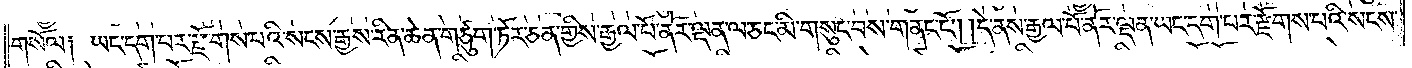གསོལ༑ ཡང་དག་པར་རྫོགས་པའི་སངས་རྒྱས་རིན་ཆེན་གཙུག་ཏོར་ཅན་གྱིས་རྒྱལ་པོ་ནོར་ལྡན་ལ་ཅང་མི་གསུང་བས་གནང་ངོ༌། །དེ་ནས་རྒྱལ་པོ་ནོར་ལྡན་ཡང་དག་པར་རྫོགས་པའི་སངས་
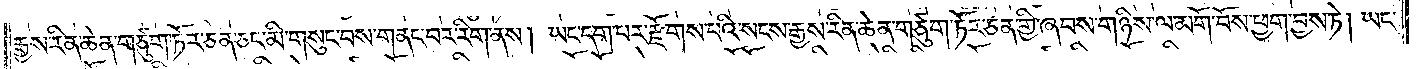རྒྱས་རིན་ཆེན་གཙུག་ཏོར་ཅན་ཅང་མི་གསུང་བས་གནང་བར་རིག་ནས། ཡང་དག་པར་རྫོགས་པའི་སངས་རྒྱས་རིན་ཆེན་གཙུག་ཏོར་ཅན་གྱི་ཞབས་གཉིས་ལ་མགོ་བོས་ཕྱག་བྱས་ཏེ། ཡང་
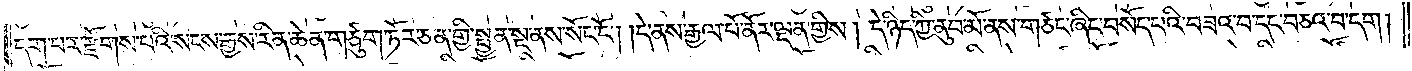དག་པར་རྫོགས་པའི་སངས་རྒྱས་རིན་ཆེན་གཙུག་ཏོར་ཅན་གྱི་སྤྱན་སྔ་ནས་སོང་ངོ༌། །དེ་ནས་རྒྱལ་པོ་ནོར་ལྡན་གྱིས། དེ་ཉིད་ཀྱི་ནུབ་མོ་ནས་གཙང་ཞིང་བསོད་པའི་བཟའ་བ་དང་བཅའ་བ་དག།
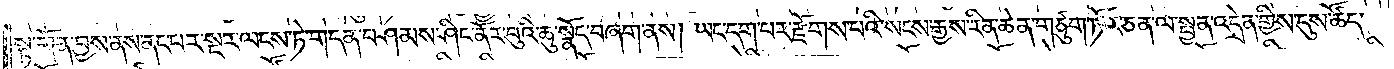སྟ་གོན་བྱས་ནས་ནང་པར་སྔར་ལངས་ཏེ་གདན་བཤམས་ཤིང་ནོར་བུའི་ཆུ་སྣོད་བཞག་ནས། ཡང་དག་པར་རྫོགས་པའི་སངས་རྒྱས་རིན་ཆེན་གཙུག་ཏོར་ཅན་ལ་སྤྱན་འདྲེན་གྱིས་དུས་ཚོད་
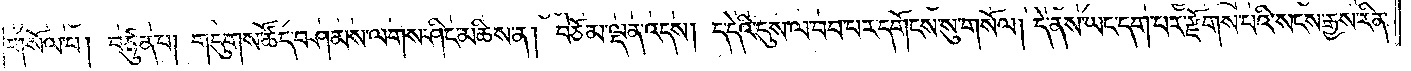གསོལ་པ། བཙུན་པ། གདུགས་ཚོད་བཤམས་ལགས་ཤིང་མཆིས་ན། བཅོམ་ལྡན་འདས། ད་དེའི་དུས་ལ་བབ་པར་དགོངས་སུ་གསོལ། དེ་ནས་ཡང་དག་པར་རྫོགས་པའི་སངས་རྒྱས་རིན་
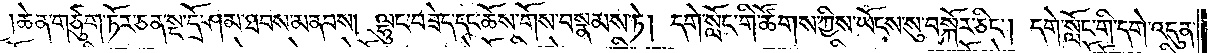།ཆེན་གཙུག་ཏོར་ཅན་སྔ་དྲོ་ཤམ་ཐབས་མནབས། ལྷུང་བཟེད་དང་ཆོས་གོས་བསྣམས་ཏེ། དགེ་སློང་གི་ཚོགས་ཀྱིས་ཡོངས་སུ་བསྐོར་ཅིང༌། དགེ་སློང་གི་དགེ་འདུན་
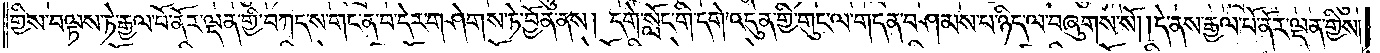གྱིས་བལྟས་ཏེ་རྒྱལ་པོ་ནོར་ལྡན་གྱི་བཀད་ས་གང་ན་བ་དེར་གཤེགས་ཏེ་བྱོན་ནས། དགེ་སློང་གི་དགེ་འདུན་གྱི་གུང་ལ་གདན་བཤམས་པ་ཉིད་ལ་བཞུགས་སོ། །དེ་ནས་རྒྱལ་པོ་ནོར་ལྡན་གྱིས་
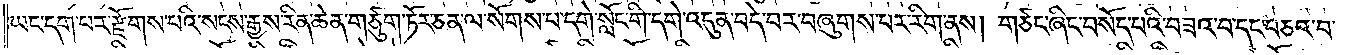ཡང་དག་པར་རྫོགས་པའི་སངས་རྒྱས་རིན་ཆེན་གཙུག་ཏོར་ཅན་ལ་སོགས་པ་དགེ་སློང་གི་དགེ་འདུན་བདེ་བར་བཞུགས་པར་རིག་ནས། གཙང་ཞིང་བསོད་པའི་བཟའ་བ་དང་བཅའ་བ་
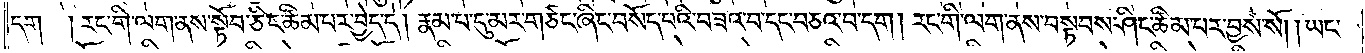དག །རང་གི་ལག་ནས་སྟོབ་ཅིང་ཚིམ་པར་བྱེད་དེ། རྣམ་པ་དུ་མར་གཙང་ཞིང་བསོད་པའི་བཟའ་བ་དང་བཅའ་བ་དག །རང་གི་ལག་ནས་བསྟབས་ཤིང་ཚིམ་པར་བྱས་སོ། །ཡང་
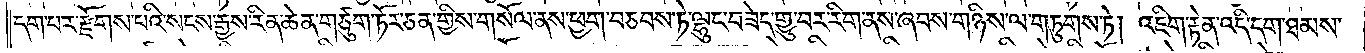དག་པར་རྫོགས་པའི་སངས་རྒྱས་རིན་པོ་ཆེན་གཙུག་ཏོར་ཅན་གྱིས་གསོལ་ནས་ཕྱག་བཅབས་ཏེ་ལྷུང་བཟེད་གྱུར་བར་རིག་ནས་ཞབས་གཉིས་ལ་གཏུགས་ཏེ། འཇིག་རྟེན་འདི་དག་ཐམས་
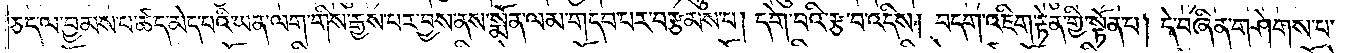ཅད་ལ་བྱམས་པ་ཚད་མེད་པའི་ཡན་ལག་གིས་རྒྱས་པར་བྱས་ནས་སྨོན་ལམ་གདབ་པར་བརྩམས་པ། དགེ་བའི་རྩ་བ་འདིས། བདག་འཇིག་རྟེན་གྱི་སྟོན་པ། དེ་བཞིན་གཤེགས་པ་
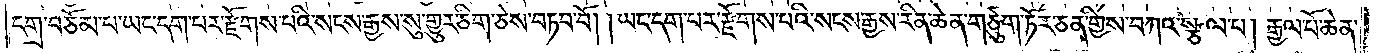དགྲ་བཅོམ་པ་ཡང་དག་པར་རྫོགས་པའི་སངས་རྒྱས་སུ་གྱུར་ཅིག་ཅེས་བཏབ་བོ། །ཡང་དག་པར་རྫོགས་པའི་སངས་རྒྱས་རིན་ཆེན་གཙུག་ཏོར་ཅན་གྱིས་བཀའ་སྩལ་པ། རྒྱལ་པོ་ཆེན་
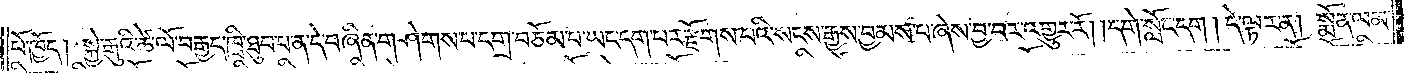པོ་ཁྱོད། སྐྱེ་རྒུའི་ཚེ་ལོ་བརྒྱད་ཁྲི་ཐུབ་པ་ན་དེ་བཞིན་གཤེགས་པ་དགྲ་བཅོམ་པ་ཡང་དག་པར་རྫོགས་པའི་སངས་རྒྱས་བྱམས་པ་ཞེས་བྱ་བར་འགྱུར་རོ། །དགེ་སློང་དག །དེ་ལྟར་ན། སྨོན་ལམ་
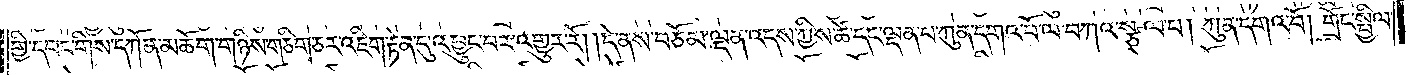གྱི་དབང་གིས་དཀོན་མཆོག་གཉིས་གཅིག་ཅར་འཇིག་རྟེན་དུ་འབྱུང་བར་འགྱུར་རོ། །དེ་ནས་བཅོམ་ལྡན་འདས་ཀྱིས་ཚེ་དང་ལྡན་པ་ཀུན་དགའ་བོ་ལ་བཀའ་སྩལ་པ། ཀུན་དགའ་བོ། གྲོང་སྤྱིལ་
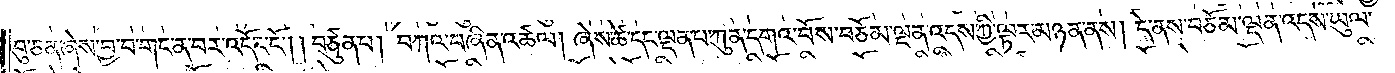བུ་ཅན་ཞེས་བྱ་བ་གང་ན་བར་འདོང་ངོ༌། །བཙུན་པ། བཀའ་བཞིན་འཚལ། ཞེས་ཚེ་དང་ལྡན་པ་ཀུན་དགའ་བོས་བཅོམ་ལྡན་འདས་ཀྱི་ལྟར་མཉན་ནས། དེ་ནས་བཅོམ་ལྡན་འདས་ཡུལ་
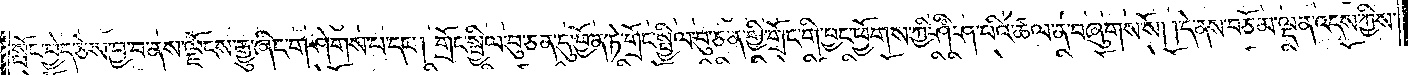སྤོང་བྱེད་ཅེས་བྱ་བ་ནས་ལྗོངས་རྒྱུ་ཞིང་གཤེགས་པ་དང༌། གྲོང་སྤྱིལ་བུ་ཅན་དུ་བྱོན་ཏེ་གྲོང་སྤྱིལ་བུ་ཅན་གྱི་གྲོང་གི་བྱང་ཕྱོགས་ཀྱི་ཤིཾ་ཤ་པའི་ཚལ་ན་བཞུགས་སོ། །དེ་ནས་བཅོམ་ལྡན་འདས་ཀྱིས་
